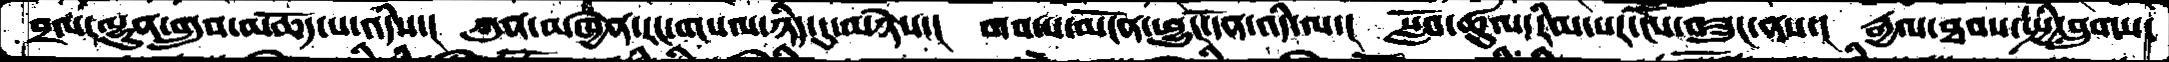བྲལ་ལྷུན་གྲུབ་མཆོད་པ་འདིས་།  ཀུན་མཁྱེན་རང་གསལ་ཉིད་དུ་མཉེས་།  གབ་པ་མངོན་ཕྱུང་དོན་འདི་ལ་།  སློབ་ཚུལ་རིམ་པར་ངེས་བཟུང་ནས་།  རྒྱལ་ཐབས་སྤྱི་བླུགས་
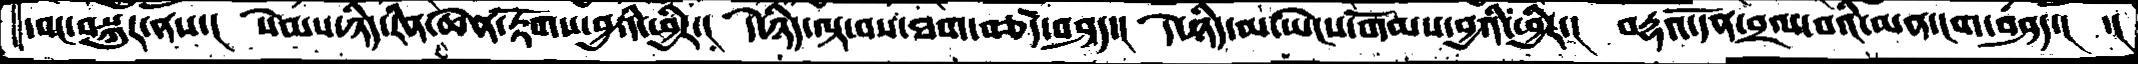དབང་བསྐུར་ནས་།   སེམས་ཉིད་རིན་ཆེན་རྟོགས་བྱའི་ཕྱིར་།  དེ་ཉིད་ལྟ་བས་ཐག་བཅད་བཤད་།  དེ་ཉིད་མ་ཡེངས་གོམས་བྱའི་ཕྱིར་།  བརྡའ་དོན་བྲལ་བའི་མན་ངག་བཤད་།  ་།
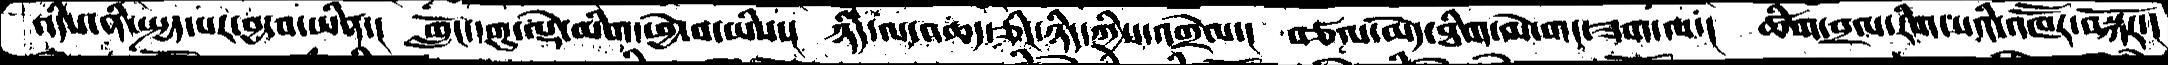འདིས་ནི་སྤྱད་པར་བྱ་བ་ཡིན་།  གློང་དགུ་ལྡེ་མིག་ཕྱེ་བ་ཡིས་།  ཉིད་ལ་འཆད་ཅིང་ཉིད་ཀྱིས་འགྲེལ་།  བཙལ་མེད་ཐིག་ལེ་གང་ཟག་ལ་།  ཚིག་བྲལ་རིག་པའི་འཁཽར་བསྐོར་།
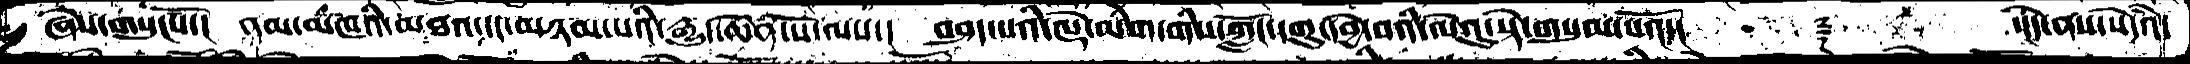ཞེས་གསུངསོ་།  ནམ་མཁའི་མཐའ་དང་མཉམ་པའི་རྒྱུད་ཆེན་པོ་ལས་།  བཤད་པའི་ལྡེ་མིག་གིས་ཀློང་དགུ་དབྱེ་བའི་ལེའུ་སྟེ་གསུམ་པའོ་།      ༈      ་།དེ་ནས་སེདའཾ་
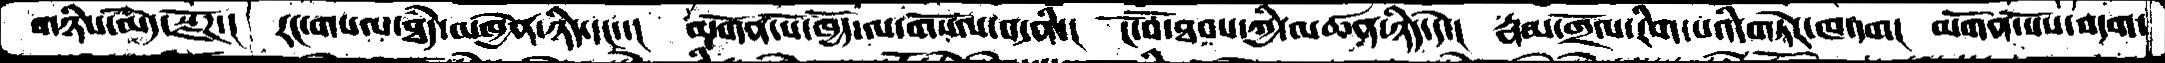གཉིས་མེད་སྫོགས་།  རང་གསལ་ཐཾད་མཁྱེན་ཉིད་དང་།  མགོན་པོ་ཁྱོད་ལ་གསོལ་བ་ནི་།  ངོ་བོ་ཐབས་ཀྱི་མཚན་ཉིད་དེ་།  རྣམ་གྲོལ་རིག་པའི་གཏེེར་ཁ་དག།  མགོན་པོས་བདག་
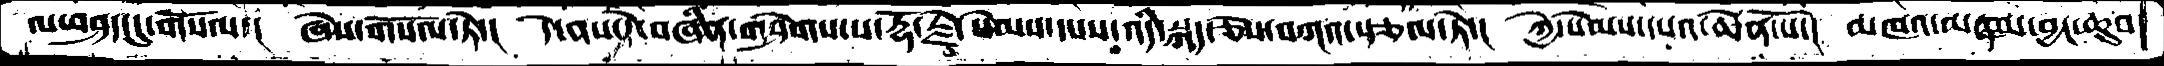ལ་བཤད་དུ་གསོལ་།  ཞེས་གསོལ་ཏེ་།  དེ་ནས་དེ་བཞིན་གཤེགས་པ་རྡོ་རྗེ་སེམས་དཔས་འདི་སྐད་ཅེས་བཀའ་སྩལ་ཏེ་།  ཀྱེ་སེམས་དཔའ་ཆེན་པོ་།  མཁའ་མཉམ་བྱང་ཆུབ་
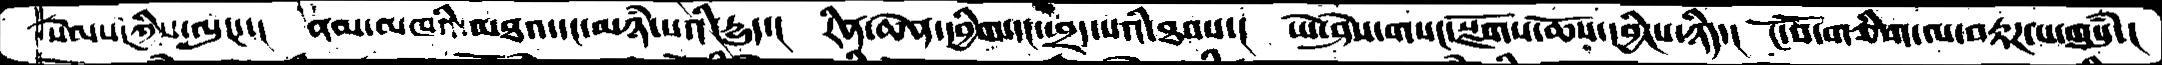སེམས་ཀྱིས་ལུང་་།  ནམ་མཁའི་མཐའ་དང་མཉཾ་པའི་དྱུད་།  རིན་ཆེན་དབྱིག་དང་ཕྲད་པའིི་ཐབས་།  ཡེ་ཤེས་གསང་སྫོགས་ཆོས་དབྱིངས་ཉིད་།  ངོ་བོ་གཅིག་ལ་བརྟཌ་པ་གསུཾ་།
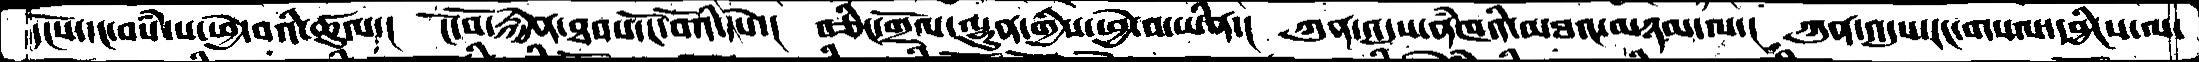དངོས་དང་བསཾ་པ་ཕྱེ་བའི་ཚུལ་།  ངོ་བོ་རྐྱེན་ཐབས་ངོ་བོའི་དཔེ་།  བཅིང་གྲོལ་ལྷུན་གྱིས་ཕྱེ་བའི་ཡིན་།  ཀུན་འདུས་ནཾཁའི་མཐའ་མཉམ་ལ་།  ཀུན་འདུས་རང་གསལ་དབྱིངས་ལ་
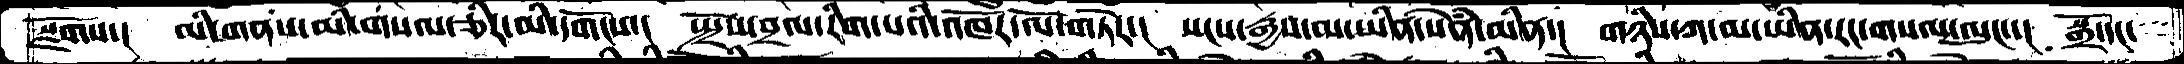སྫོགས་།   མི་གནས་མི་གསལ་ཅིར་མི་དགོངས་།  སྤྲོས་བྲལ་རིག་པའི་འཁོར་ལོ་གཏེར་།  སངས་རྒྱས་མ་ཡིན་སེཾན་མིན་།  གཉིས་ཀ་མ་ཡིན་རང་གསལ་ལུང་་།  སྒྲོ་དང་
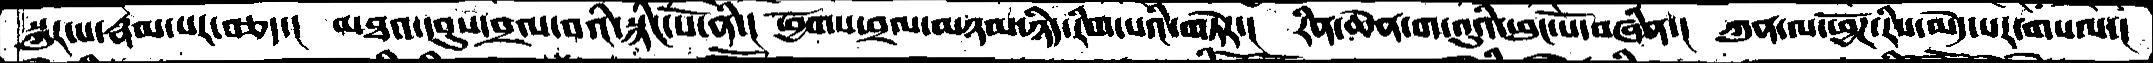སྐུར་པ་རྣམ་པར་བཅད་།  མཐའ་དབུས་བྲལ་བའི་སྙིང་པོ་ནི་།  ཕྱོགས་བྲལ་མཉམ་ཉིད་རིག་པའི་གཏེར་།  རིན་ཆེན་ག་འུའི་ཕུང་པོ་བཞིན་།  ཀུན་ལ་ཕྱོཌ་རིས་མེད་པར་གསལ་།
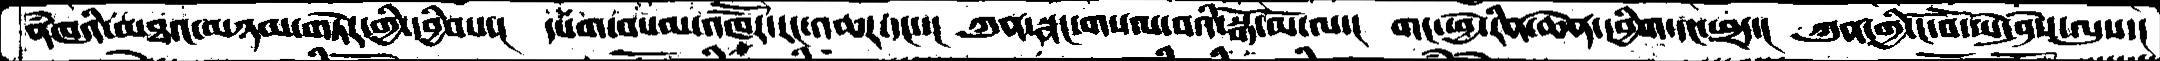ནཾཁའི་མཐའ་མཉམ་གཏེར་གྱི་དབྱིབས་།  དཔག་བསམ་འཁཽར་རང་འཆར་དང་་།  ཀུན་སྣང་གསལ་བའི་སྒོ་མོ་ལ་།  གང་ཕྱེ་རིན་ཆེན་དབྱིག་དང་ཕྲད་།  ཀུན་གྱི་ངོ་བོ་ཡེ་ཤེས་ལུས་།
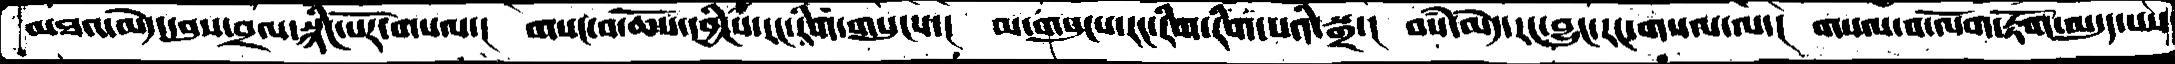མཐའ་མེད་དབུས་བྲལ་སྙིང་པོར་གསལ་།  གསང་བ་ཆོས་དབྱིངས་རང་རིག་གསུངས་།  མ་གསུངས་རང་རིག་རིག་པའི་སྒྲ་།  བསཾ་མེད་རང་བྱུང་རང་གསལ་ལ་།  གསལ་བ་ལོག་རྟོག་མདུད་པས
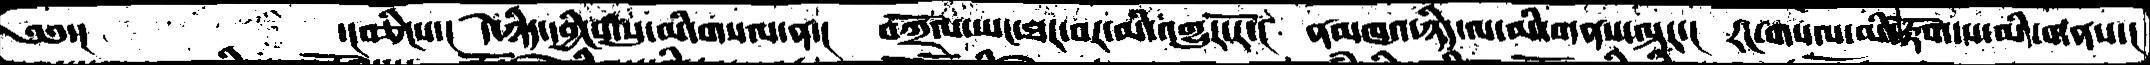༄༅་།       ་།བཅིངས་།  དེ་ཉིད་དབྱིས་སུ་མི་གསལ་ན་།  བཀྲོལ་ཡང་ཐར་བར་མི་འགྱུར་རོ་།  ནམཁའ་ཉིད་ལ་མི་གནས་ལྟར་།  རང་གསལ་མི་རྟོག་པ་མི་གནས་།
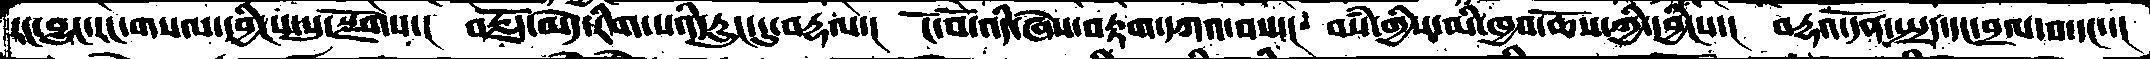རང་བྱུང་རང་གསལ་དབྱིངས་སུ་སྫོགས་།  བརྗོད་མེད་རིག་པའི་རླུང་དུ་བརྡལ་།  ངོ་བོ་འདི་ཞེས་བརྟག་དཀའ་བས་།  བསཾ་གྱིས་མི་ཁྱབ་ཆོས་ཀྱི་དབྱིངས་།  བརྡའ་དོན་སྤྲད་དང་བྲལ་བ་དང་་།
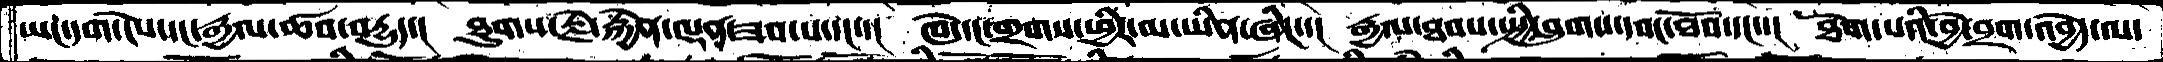ཡང་དག་ངེས་དང་རྒྱལ་ཚབ་བདྱུད་།  ཐུགས་རྗེ་རྐྱེན་ལྡན་ཟབ་པ་དང་་།  ཁེ་དང་གྲགས་ཕྱིར་མ་ཡིན་ཞིང་་།  རྒྱལ་ཐབས་སྤྱི་བླུགས་དབང་ཐོབ་དང་་།  ཐེག་པའི་བྱེ་བྲག་འབྱེད་ལ་
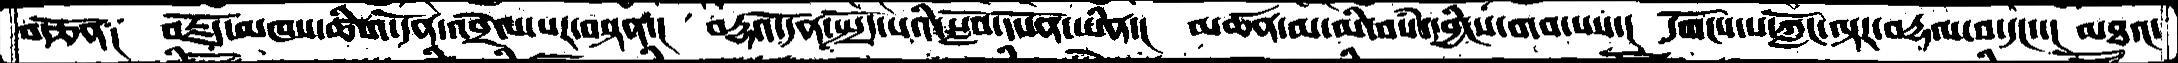བརྩོན༑  བརྗོད་མཁས་ཚིག་དོན་འབྲེལ་པར་བསྟན་།  བརྡའ་དོན་སྤྱོད་པའི་སློབ་དཔོན་ཡིན་།  མཚན་མ་མི་བསཾ་དབྱིངས་གབ་པས་།  དགོངས་པ་ཀློང་ལྟར་བརྡལ་བ་དང་་།  མཐའ་
